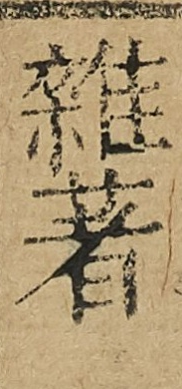雜著
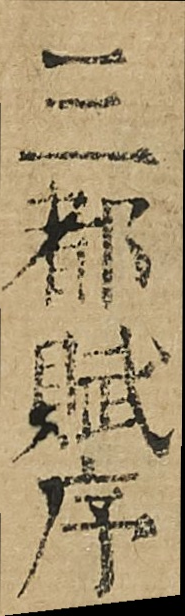三都賦序
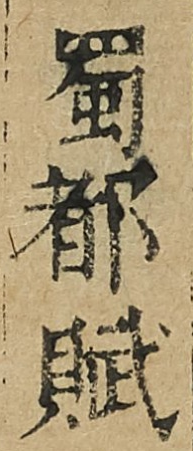蜀都賦
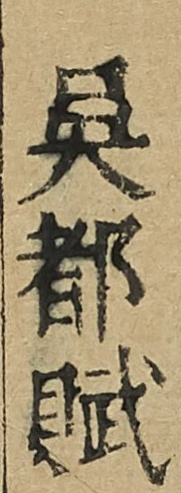吳都賦
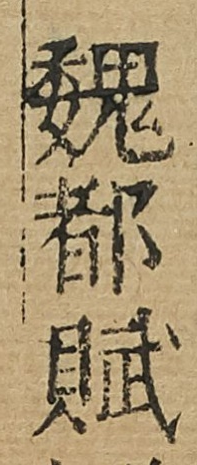魏都賦
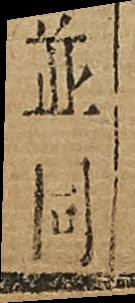並同
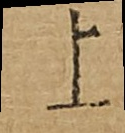上
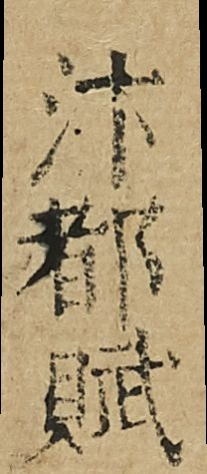汴都賦
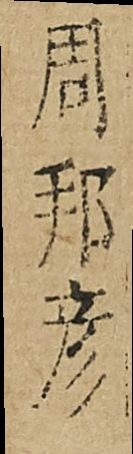周邦彦
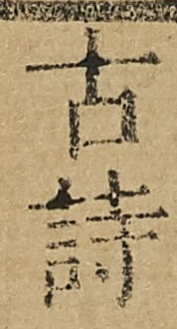古詩
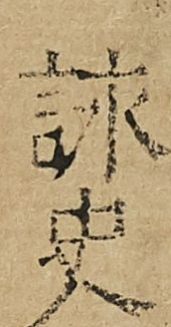詠史
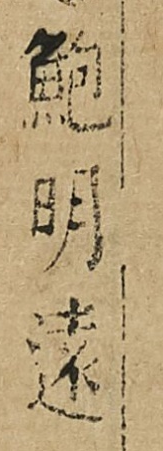鮑明逺
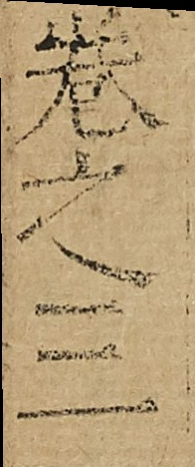卷之三
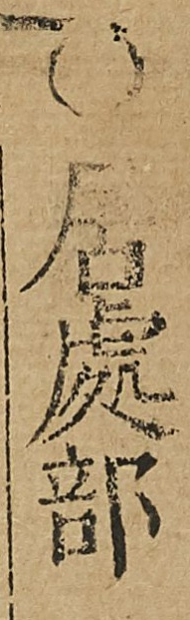居處部
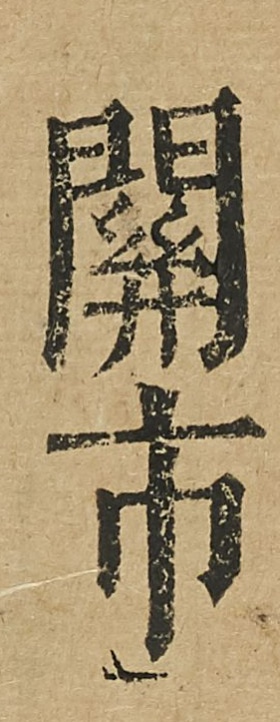關市
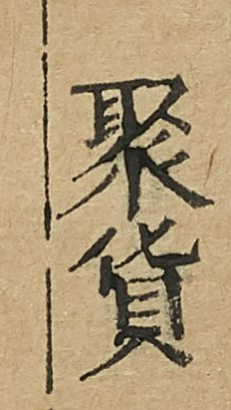聚貨
